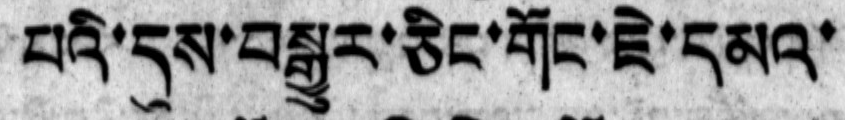པའི་དུས་བསྒྱུར་ཅིང་གོང་ཇེ་དམའ་
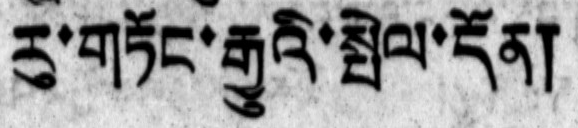རུ་གཏོང་རྒྱུའི་སྤེལ་དོན།
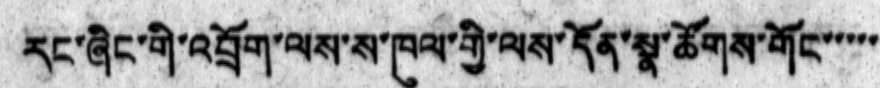རང་ཞིང་གི་འབྲོག་ལས་ས་ཁུལ་གྱི་ལས་དོན་སྣ་ཚོགས་གོང་་་་་་
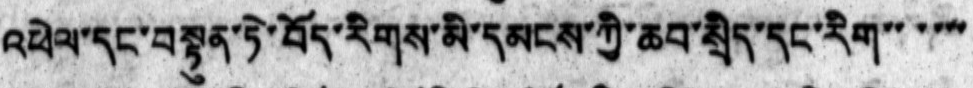འཕེལ་དང་བསྟུན་ཏེ་བོད་རིགས་མི་དམངས་ཀྱི་ཆབ་སྲིད་དང་རིག་་་་་་
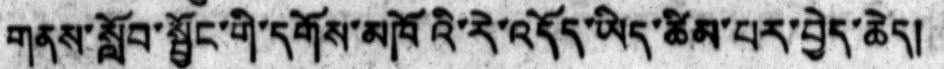གནས་སློབ་སྦྱོང་གི་དགོས་མཁོའི་རེ་འདོད་ཡིད་ཚིམ་པར་བྱེད་ཆེད།
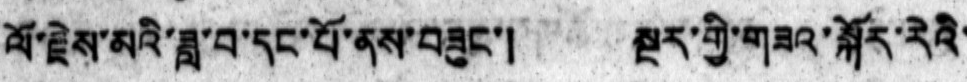ལོ་རྗེས་མའི་ཟླ་བ་དང་པོ་ནས་བཟུང་། སྔར་གྱི་གཟའ་སྐོར་རེའི་
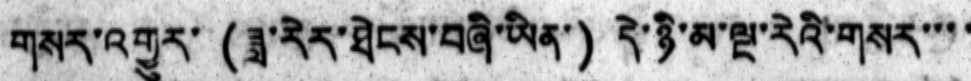གསར་འགྱུར་(ཟླ་རིར་ཐེངས་བཞི་ཡིན་) དེ་ཉི་མ་ལྔ་རེའི་གསར་་་་
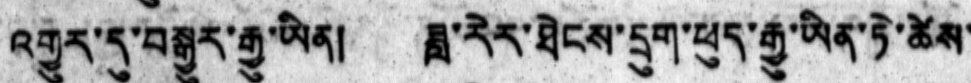འགྱུར་དུ་བསྒྱུར་རྒྱུ་ཡིན། ཟླ་རེར་ཐེངས་དྲུག་ཕུད་རྒྱུ་ཡིན་ཏེ་ཚེས་
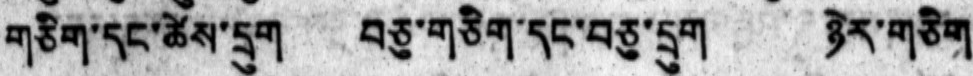གཅིག་དང་ཚེས་དྲུག བཅུ་གཅིག་དང་བཅུ་དྲུག ཉེར་གཅིག
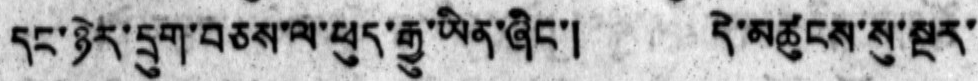དང་ཉེར་དྲུག་བཅས་ལ་ཕུད་རྒྱུ་ཡིན་ཞིང་། དེ་མཚུངས་སུ་སྔར་
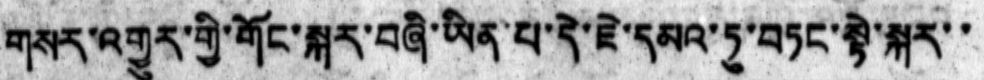གསར་འགྱུར་གྱི་གོང་སྐར་བཞི་ཡིན་པ་དེ་ཇེ་དམའ་ཏུ་བཏང་སྟེ་སྐར་་
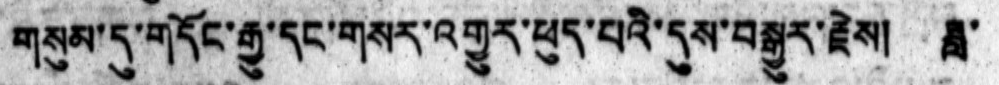གསུམ་དུ་གདོང་རྒྱུ་དང་གསར་འགྱུར་ཕུད་པའི་དུས་བསྒྱུར་རྗེས། ཟླ་
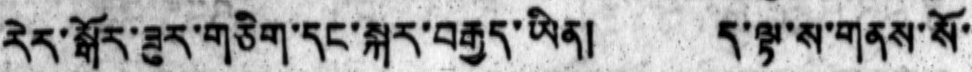རེར་སྒོར་ཟུར་གཅིག་དང་སྐར་བརྒྱད་ཡིན།  ད་ལྟ་ས་གནས་སོ་
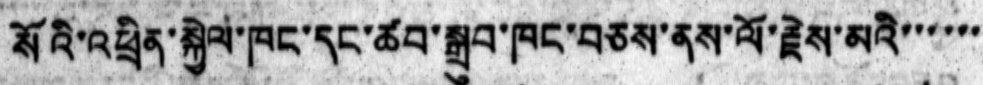སོའི་འཕྲིན་སྐྱེལ་ཁང་དང་ཚབ་སྒྲུབ་ཁང་བཅས་ནས་ལོ་རྗེས་མའི་་་་་་
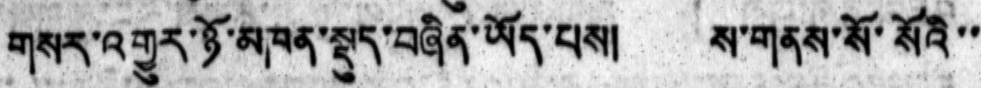གསར་འགྱུར་ཉོ་མཁན་སྡུད་བཞིན་ཡོད་པས། ས་གནས་སོ་སོའི་་
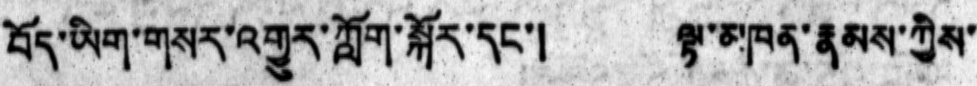བོད་ཡིག་གསར་འགྱུར་ཀློག་སྐོར་དང་། ལྟ་མཁན་རྣམས་ཀྱིས་
